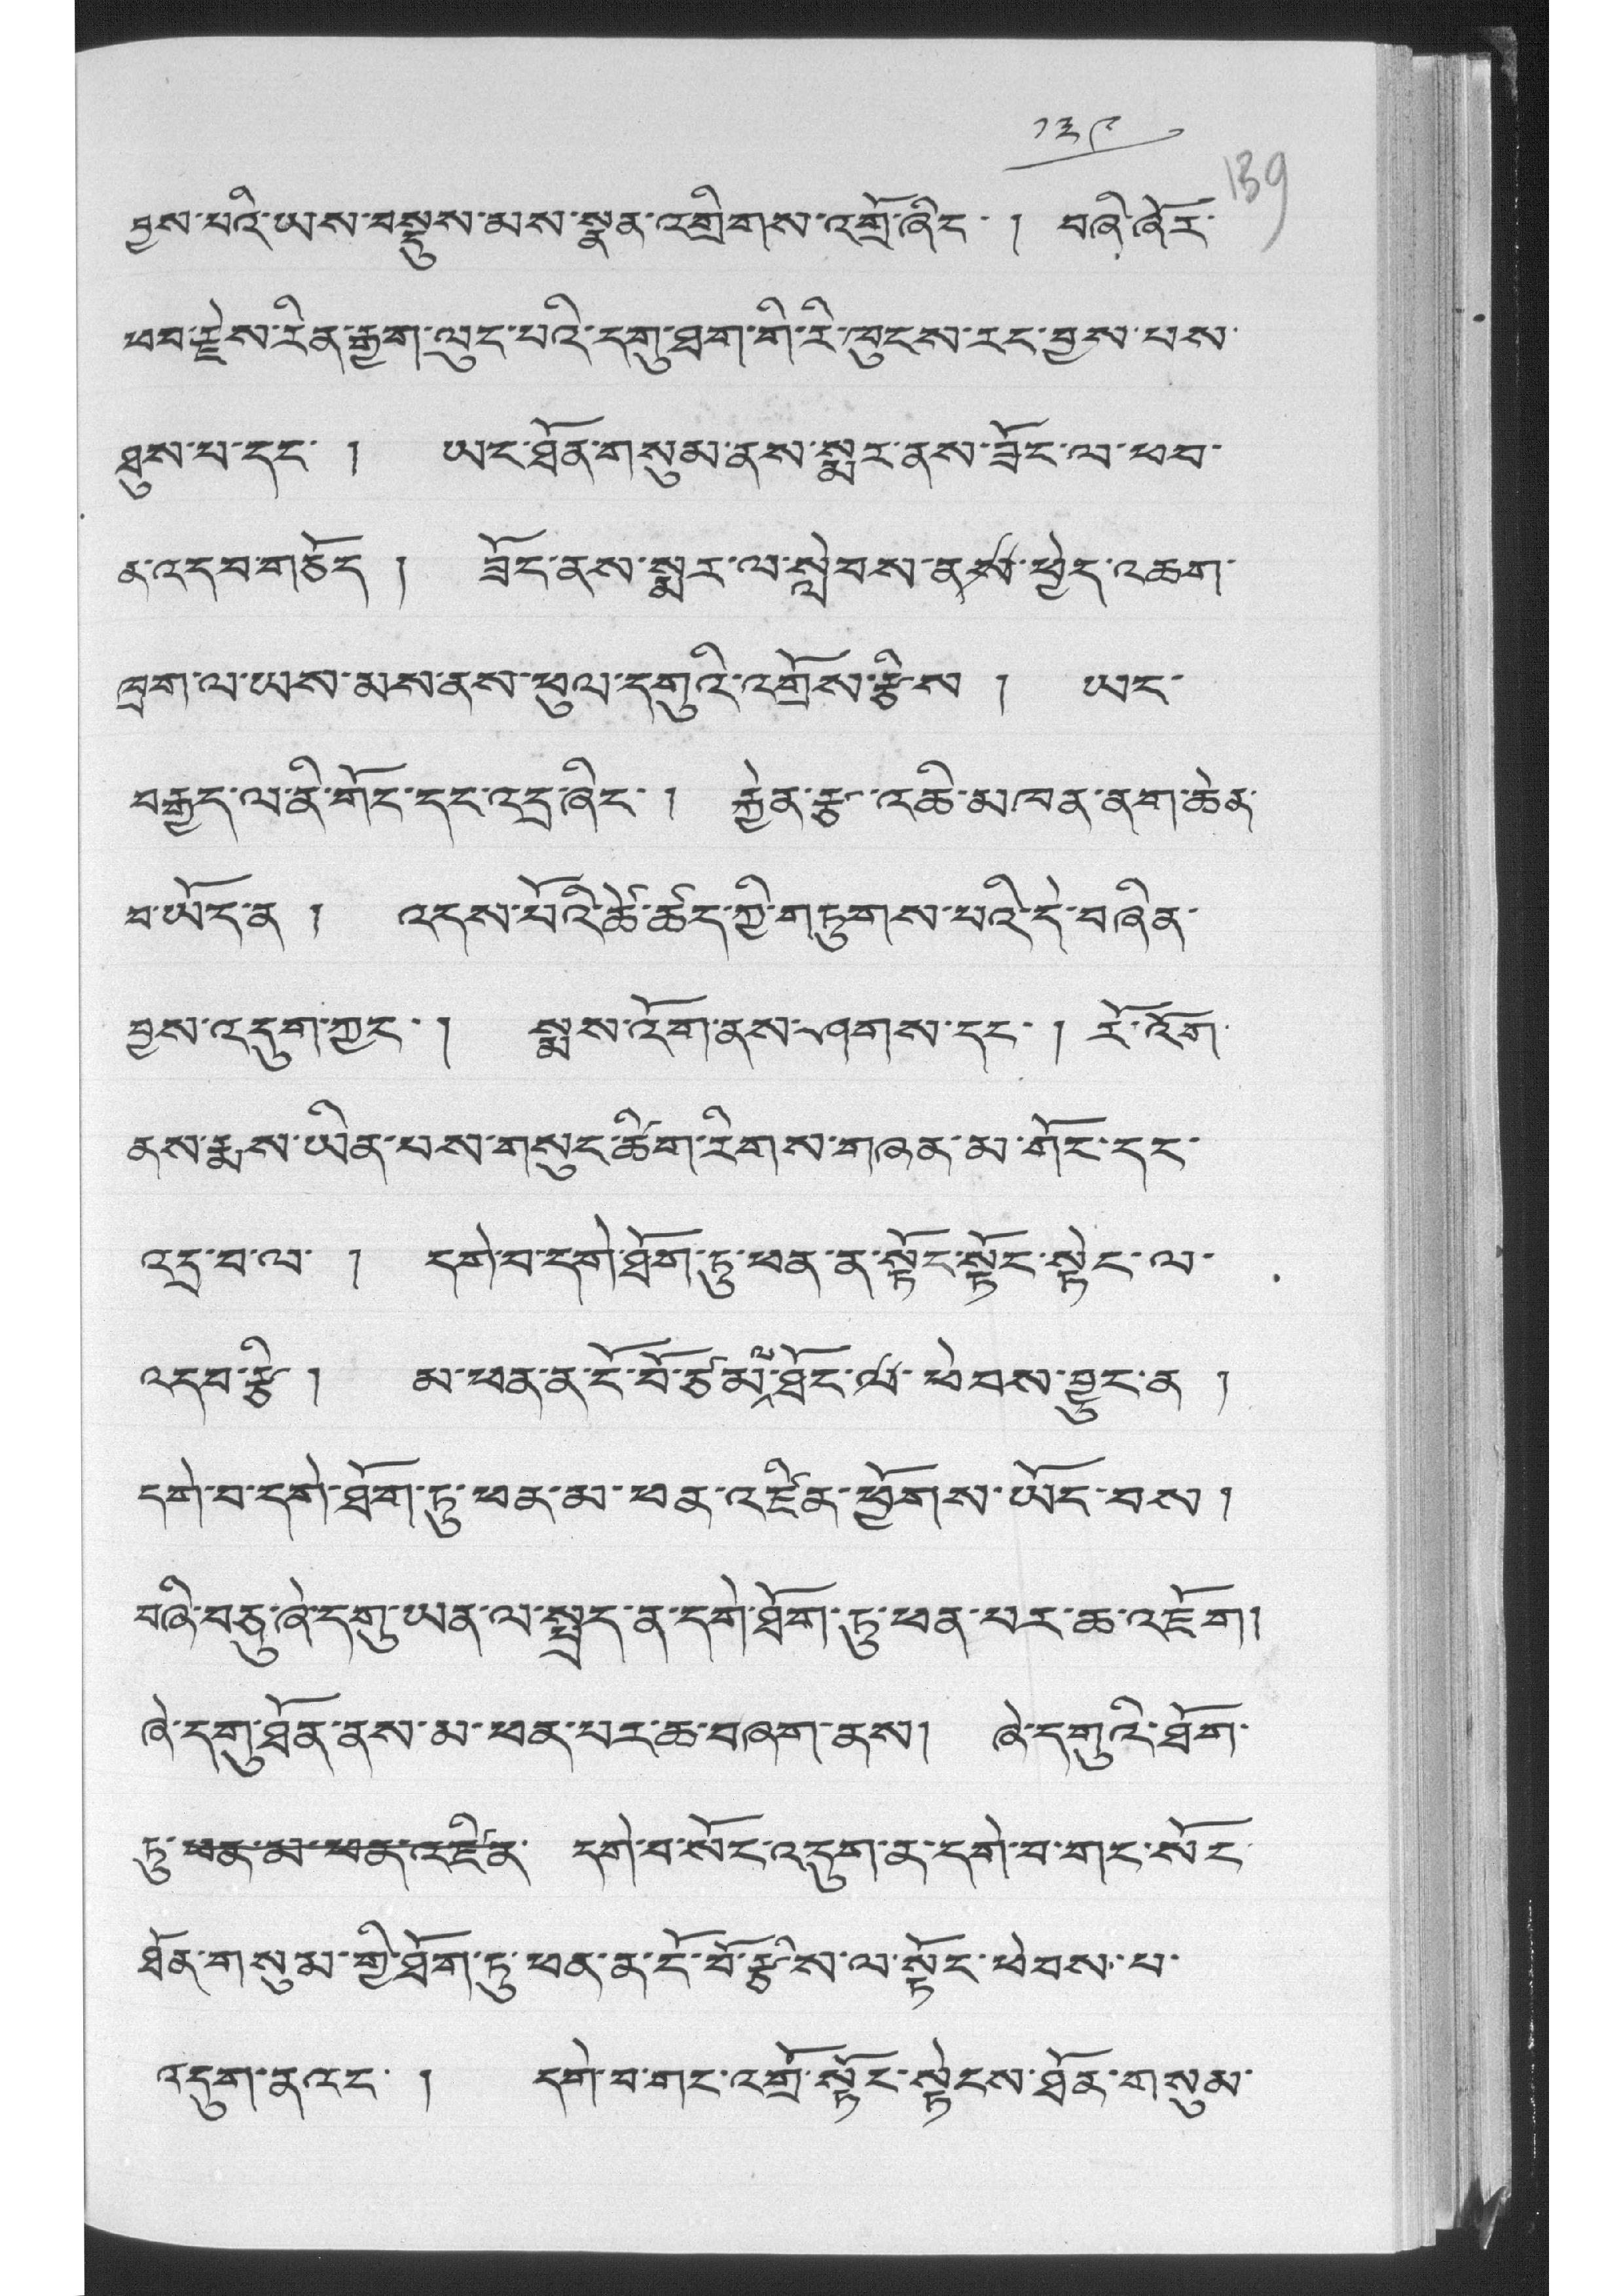༡༣༩
བྱས་པའི་ཡས་བསྡུས་མས་སྣན་འགྲིགས་འགྲོ་ཞིང་ ། བཞི་ཞོར་
ཕབ་རྗེས་རིན་རྒྱག་ལུང་པའི་དགུ་ཐག་གི་རི་ཁུངས་རང་བྱས་པས་
ཐུས་པ་དང་ ། ཡང་ཐོན་གསུམ་ནས་སྨར་ནས་ཟོང་ལ་ཕབ་
ན་འདབ་གཅོད ། ཟོང་ནས་སྨར་ལ་སླེབས་ནས་ཕྱེད་འཆག་
ཁྲག་ལ་ཡས་མས་ནས་ཕུལ་དགུའི་འགྲོས་རྩིས ། ཡང་
བརྒྱད་ལ་ནི་གོང་དང་འདྲ་ཞིང་། རྐྱེན་རྩ་འཆི་མཁན་ནག་ཆེན་
བ་ཡོད་ན ། འདས་པོའི་ཚེ་ཚད་ཀྱི་གཏུགས་པའི་དེ་བཞིན་
བྱས་འདུག་ཀྱང་ ། སྨས་འོག་ནས་ཤགས་དང་། རོ་འོག་
ནས་རྨས་ཡིན་པས་གསུང་ཚིག་རིགས་གཞན་མ་གོང་དང་
འདྲ་བ་ལ་ ། དགེ་བ་དགེ་ཐོག་ཏུ་ཕན་ན་སྟོང་སྟོང་སྟེང་ལ་
འདབ་རྩི ། མ་ཕན་ན་ངོ་བོ་ཙམ་ལ་ཐོང་ལ་ཕེབས་བྱུང་ན །
དགེ་བ་དགེ་ཐོག་ཏུ་ཕན་མ་ཕན་འཛིན་ཕྱོགས་ཡོང་བས །
བཞི་བཅུ་ཞེ་དགུ་ཡན་ལ་སྤྲད་ན་དགེ་ཐོག་ཏུ་ཕན་པར་ཆ་འཇོག།
ཞེ་དགུ་ཐོན་ནས་མ་ཕན་པར་ཆ་བཞག་ནས། ཞེ་དགུའི་ཐོག་
ཏུ་ཕན་མི་ཕན་འཛིན་ དགེ་བ་སོང་འདུག་ན་དགེ་བ་གང་སོང་
ཐོན་གསུམ་གྱི་ཐོག་ཏུ་ཕན་ན་ངོ་བོ་རྩིས་ལ་སྟོང་ཕེབས་པ་
འདུག་ན་འང་ ། དགེ་བ་གང་འགྲོ་སྟོང་སྟེངས་ཐོན་གསུམ་
